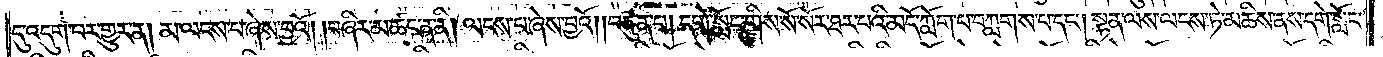དུ་འདུག་པར་གྱུར་ན། མ་ལངས་པ་ཞེས་བྱའོ། །བཞིར་མ་ཚང་ན་ནི། ལངས་པ་ཞེས་བྱའོ། །བཙུན་པ། དགེ་སློང་གིས་སོ་སོར་ཐར་པའི་མདོ་ཀློག་པ་བཀླགས་པ་དང༌། སྟན་ལས་ལངས་ཏེ་མཆིས་ནས་དགེ་སློང་
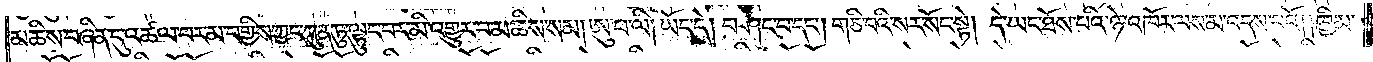མཆིས་བཞིན་དུ་འཚལ་བར་མ་བགྱིས་ཀྱང་ཀུན་ཏུ་ལྟུང་བར་མི་འགྱུར་བ་མཆིས་སམ། ཨུ་པ་ལི། ཡོད་དེ། བཤང་བ་དང༌། གཅི་བའི་སར་སོང་སྟེ། དེ་ཡང་ཐོས་པའི་ཉེ་འཁོར་ལས་མ་འདས་པའོ། །ཁྱིམ་
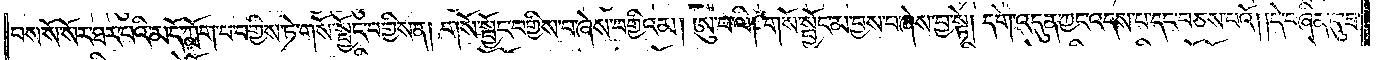པས་སོ་སོར་ཐར་པའི་མདོ་ཀློག་པ་བགྱིས་ཏེ་གསོ་སྦྱོང་བགྱིས་ན། གསོ་སྦྱོང་བགྱིས་པ་ཞེས་བགྱིའམ། ཨུ་པ་ལི། གསོ་སྦྱོང་མ་བྱས་པ་ཞེས་བྱ་སྟེ། དགེ་འདུན་ཀྱང་འདས་པ་དང་བཅས་པའོ། །དེ་བཞིན་དུ་ཟ་
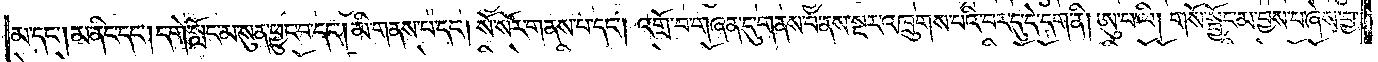མ་དང༌། མ་ནིང་དང༌། དགེ་སློང་མ་སུན་ཕྱུང་བ་དང༌། མི་གནས་པ་དང༌། སོ་སོར་གནས་པ་དང༌། འགྲོ་བ་གཞན་དུ་གནས་པ་ནས་སྔར་འཁྲུགས་པའི་བར་དུ་དེ་དག་ནི། ཨུ་པ་ལི། གསོ་སྦྱོང་མ་བྱས་པ་ཞེས་བྱ་
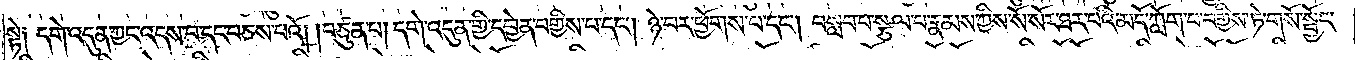སྟེ༑ དགེ་འདུན་ཀྱང་འདས་པ་དང་བཅས་པའོ། །བཙུན་པ། དགེ་འདུན་གྱི་དབྱེན་བགྱིས་པ་དང༌། ཉེ་བར་ཕྱོགས་པ་དང༌། བསླབ་པ་སྩལ་པ་རྣམས་ཀྱིས་སོ་སོར་ཐར་པའི་མདོ་ཀློག་པ་བགྱིས་ཏེ་གསོ་སྦྱོང་
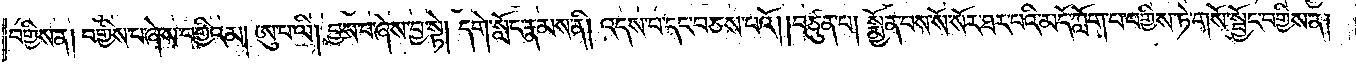བགྱིས་ན། བགྱིས་པ་ཞེས་བགྱིའམ། ཨུ་པ་ལི། བྱས་པ་ཞེས་བྱ་སྟེ། དགེ་སློང་རྣམས་ནི། འདས་པ་དང༌བཅས་པའོ། །བཙུན་པ། སྨྱོན་པས་སོ་སོར་ཐར་པའི་མདོ་ཀློག་པ་བགྱིས་ཏེ་གསོ་སྦྱོང་བགྱིས་ན།
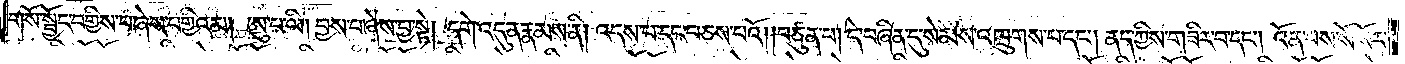གསོ་སྦྱོང་བགྱིས་པ་ཞེས་བགྱིའམ། ཨུ་པ་ལི། བྱས་པ་ཞེས་བྱ་སྟེ། དགེ་འདུན་རྣམས་ནི། འདས་པ་དང་བཅས་པའོ། །བཙུན་པ། དེ་བཞིན་དུ་སེམས་འཁྲུགས་པ་དང༌། ནད་ཀྱིས་གཟིར་བ་དང༌། འོན་པས་སོ་སོར་
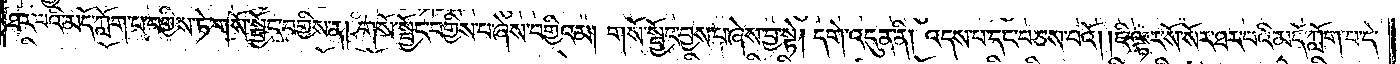ཐར་པའི་མདོ་ཀློག་པ་བགྱིས་ཏེ་གསོ་སྦྱོང་བགྱིས་ན། གསོ་སྦྱོང་བགྱིས་པ་ཞེས་བགྱིའམ། གསོ་སྦྱོང་བྱས་པ་ཞེས་བྱ་སྟེ། དགེ་འདུན་ནི། འདས་པ་དང་བཅས་པའོ། །ཇི་ལྟར་སོ་སོར་ཐར་པའི་མདོ་ཀློག་པ་དེ་
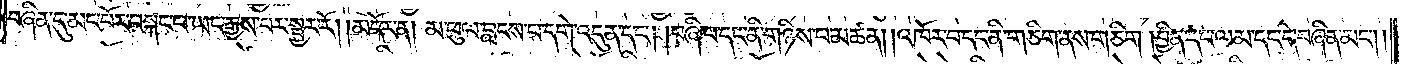བཞིན་དུ་མང་པོར་བསྐང་པ་ཡང་རྒྱས་པར་སྦྱར་རོ། །མདོར་ན། མ་ཕུལ་བླངས་པ་དགེ་འདུན་དང༌། །བཞི་པ་དང་ནི་གཉིས་པ་མཚན། །འཁོར་བ་དང་ནི་གཅིག་ནས་གཅིག །བྱིན་དང་ལམ་དང་དེ་བཞིན་མང༌༎
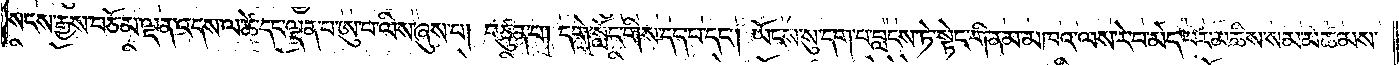སངས་རྒྱས་བཅོམ་ལྡན་འདས་ལ་ཚེ་དང་ལྡན་པ་ཨུ་པ་ལིས་ཞུས་པ། བཙུན་པ། དགེ་སློང་གིས་དད་པ་དང༌། ཡོངས་སུ་དག་པ་བླངས་ཏེ་སྟེང་གི་ནམ་མཁའ་ལས་རེ་བ་མེད་པར་མཆིས་སམ་མཚམས་
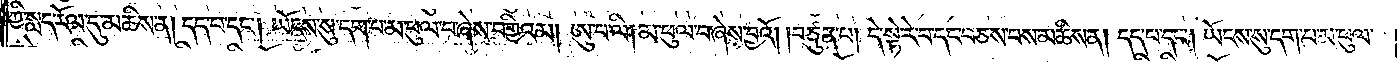ཀྱི་སླད་རོལ་དུ་མཆིས་ན། དད་པ་དང༌། ཡོངས་སུ་དག་པ་མ་ཕུལ་བ་ཞེས་བགྱིའམ། ཨུ་པ་ལི། མ་ཕུལ་བ་ཞེས་བྱའོ། །བཙུན་པ། དེ་སྟེ་རེ་བ་དང་བཅས་པས་མཆིས་ན། དད་པ་དང༌། ཡོངས་སུ་དག་པ་མ་ཕུལ་
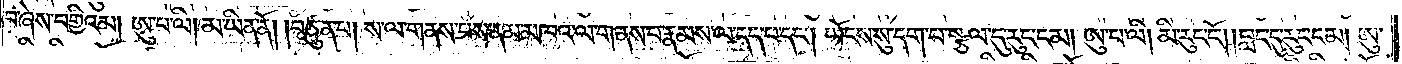བ་ཞེས་བགྱིའམ། ཨུ་པ་ལི། མ་ཡིན་ནོ། །བཙུན་པ། ས་ལ་གནས་པས་ནམ་མཁའ་ལ་གནས་པ་རྣམས་ལ་དད་པ་དང༌། ཡོངས་སུ་དག་པ་སྩལ་དུ་རུང་ངམ། ཨུ་པ་ལི། མི་རུང་ངོ༌། །བླང་དུ་རུང་ངམ། ཨུ་
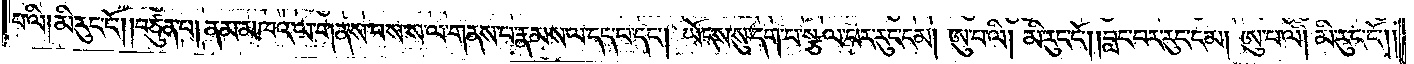པ་ལི། མི་རུང་ངོ༌། །བཙུན་པ། ནམ་མཁའ་ལ་གནས་པས་ས་ལ་གནས་པ་རྣམས་ལ་དད་པ་དང༌། ཡོངས་སུ་དག་པ་སྩལ་པར་རུང་ངམ། ཨུ་པ་ལི། མི་རུང་ངོ༌། །བླང་བར་རུང་ངམ། ཨུ་པ་ལི། མི་རུང་ངོ༌། །
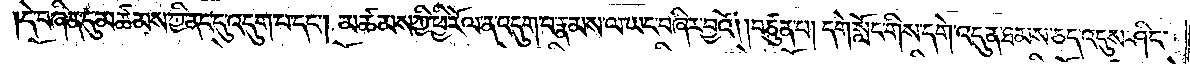།དེ་བཞིན་དུ་མཚམས་ཀྱི་ནང་དུ་འདུག་པ་དང༌། མཚམས་ཀྱི་ཕྱི་རོལ་ན་འདུག་པ་རྣམས་ལ་ཡང་བཞིར་བྱའོ། །བཙུན་པ། དགེ་སློང་གིས་དགེ་འདུན་ཐམས་ཅད་འདུས་ཤིང་
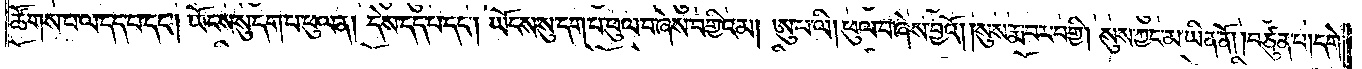ཚོགས་པ་ལ་དད་པ་དང༌། ཡོངས་སུ་དག་པ་ཕུལ་ན། དེས་དད་པ་དང༌། ཡོངས་སུ་དག་པ་ཕུལ་བ་ཞེས་བགྱིའམ། ཨུ་པ་ལི། ཕུལ་བ་ཞེས་བྱའོ། །སུས་རྨ་བར་བགྱི། སུས་ཀྱང་མ་ཡིན་ནོ། །བཙུན་པ། དགེ་
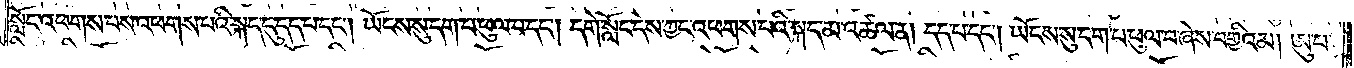སློང་འཕགས་པས་འཕགས་པའི་སྐད་དུ་དད་པ་དང༌། ཡོངས་སུ་དག་པ་ཕུལ་བ་དང༌། དགེ་སློང་དེས་ཀྱང་འཕགས་པའི་སྐད་མ་འཚལ་ན། དད་པ་དང༌། ཡོངས་སུ་དག་པ་ཕུལ་བ་ཞེས་བགྱིའམ། ཨུ་པ་
